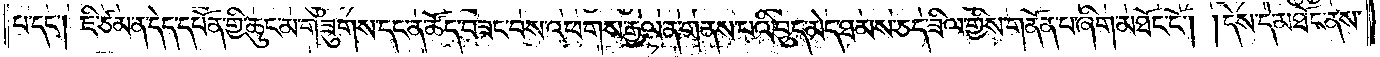པ་དང༌། ཇི་ཙམ་ན་དེད་དཔོན་གྱི་ཆུང་མ་གཟུགས་དང་ན་ཚོད་བཟང་བས་འཕགས་རྒྱལ་ན་གནས་པའི་བུད་མེད་ཐམས་ཅད་ཟིལ་གྱིས་གནོན་པ་ཞིག་མཐོང་ངོ༌། །དེས་དེ་མཐོང་ནས་
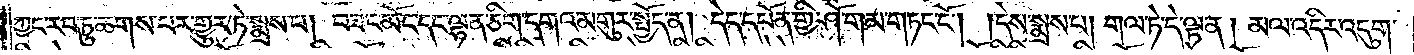ཀྱང་རབ་ཏུ་ཆགས་པར་གྱུར་ཏེ་སྨྲས་པ། བཟང་མོ་དང་ལྷན་ཅིག་དགའ་མགུར་སྤྱོད་ན། དེད་དཔོན་གྱི་ཤོ་གམ་གཏོང་ངོ༌། །དེས་སྨྲས་པ། གལ་ཏེ་དེ་ལྟ་ན། མལ་འདིར་འདུག་
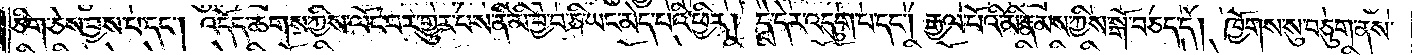ཅིག་ཅེས་བྱས་པ་དང༌། འདོད་ཆགས་ཀྱིས་ལོང་བར་གྱུར་པས་ནི་མི་བྱ་བ་ཅི་ཡང་མེད་པའི་ཕྱིར། དེ་དེར་འདུག་པ་དང༌། རྒྱལ་པོའི་མི་རྣམས་ཀྱིས་སྒོ་བཅད་དེ། ཁྱོགས་སུ་བཅུག་ནས་
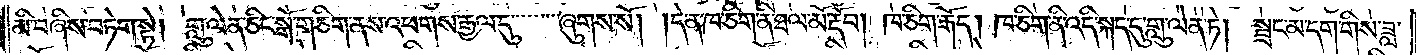མི་བཞིས་བཏེག་སྟེ། གླུ་ལེན་ཅིང་སྒོ་གཅིག་ནས་འཕགས་རྒྱལ་དུ་ཞུགས་སོ། །དེ་ན་ཁ་ཅིག་ནི་ཐལ་མོ་རྡོབ། ཁ་ཅིག་རྒོད། ཁ་ཅིག་ནི་འདི་སྐད་དུ་གླུ་ལེན་ཏེ། སྦྲང་མ་དག་གིས་ཟླ་
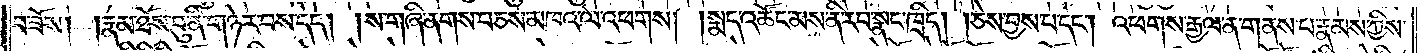བ་ཟོས། །རྣམ་ཐོས་བུ་ནི་གཉེར་བས་དེད། །ས་གཞི་ནགས་བཅས་མཁའ་ལ་འཕགས། །སྨད་འཚོང་མས་ནི་རབ་སྣང་ཁྲིད། །ཅེས་བྱས་པ་དང༌། འཕགས་རྒྱལ་ན་གནས་པ་རྣམས་ཀྱིས་
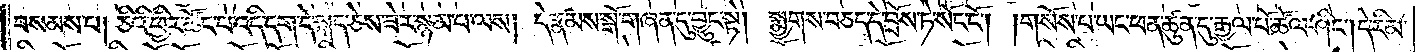བསམས་པ། ཅིའི་ཕྱིར་ཚོང་པ་འདི་དག་དེ་སྐད་ཅེས་ཟེར་སྙམ་པ་ལས། དེ་རྣམས་སྒོ་གཞན་དུ་བྱུང་སྟེ། སྨྱགས་བཅད་དེ་བྲོས་ཏེ་སོང་ངོ༌། །གསོས་པ་ཡང་ཕན་ཚུན་དུ་རྒྱལ་པོ་ཚོལ་ཤིང༌། དེ་རིམ་
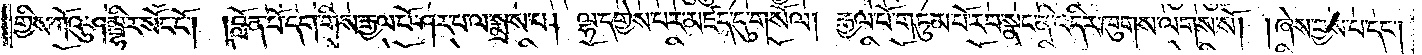གྱིས་ཀོའུ་ཤམྦྷིར་སོང་ངོ༌། །བློན་པོ་དག་གིས་རྒྱལ་པོ་ཤར་པ་ལ་སྨྲས་པ། ལྷ་དགྱེས་པར་མཛད་དུ་གསོལ། རྒྱལ་པོ་གཏུམ་པོ་རབ་སྣང་ནི་འདིར་ཁུགས་ལགས་སོ། །ཞེས་བྱས་པ་དང༌།
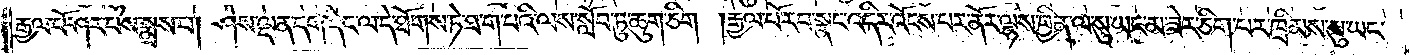རྒྱལ་པོ་ཤར་པ་སྨྲས་པ། ཤེས་ལྡན་དག་དེང་ལ་དེ་ཐོགས་ཏེ་ཐ་ག་པའི་ལས་སློབ་ཏུ་ཆུག་ཅིག །རྒྱལ་པོ་རབ་སྣང་འདིར་འོངས་པར་ནོར་ལྷས་བྱིན་ལ་སུ་ཡང་མ་ཟེར་ཅིག་པར་ཁྲིམས་སུ་ཡང་
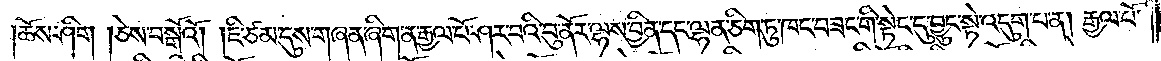ཆོས་ཤིག །ཅེས་བསྒོའོ། །ཇི་ཙམ་དུས་གཞན་ཞིག་ན་རྒྱལ་པོ་ཤར་བའི་བུ་ནོར་ལྷས་བྱིན་དང་ལྷན་ཅིག་ཏུ་ཁང་བཟང་གི་སྟེང་དུ་བྱུང་སྟེ་འདུག་པ་ན། རྒྱལ་པོ་
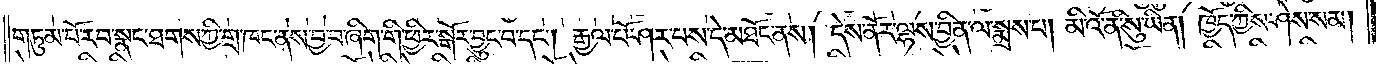གཏུམ་པོ་རབ་སྣང་ཐགས་ཀྱི་གྲ་ཁང་ནས་བྱ་བ་ཞིག་གི་ཕྱིར་སྒོར་བྱུང་བ་དང༌། རྒྱལ་པོ་ཤར་པས་དེ་མཐོང་ནས། དེས་ནོར་ལྷས་བྱིན་ལ་སྨྲས་པ། མིའོ་ནི་སུ་ཡིན། ཁྱོད་ཀྱིས་ཤེས་སམ།
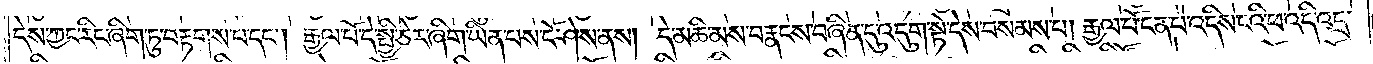དེས་ཀྱང་རིང་ཞིག་ཏུ་བརྟགས་པ་དང༌། རྒྱལ་པོ་དེ་སྤྱི་ཅེར་ཞིག་ཡིན་པས་ངོ་ཤེས་ནས། དེ་མཆི་མས་བརྣངས་བཞིན་དུ་འདུག་སྟེ་དེས་བསམས་པ། རྒྱལ་པོ་ངན་པ་འདིས་ངའི་ཕ་འདི་འདྲ་
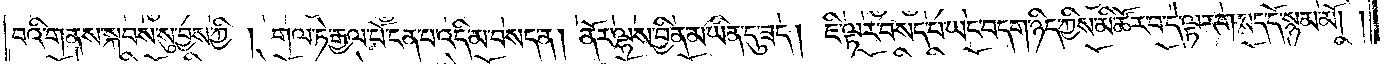བའི་གནས་སྐབས་སུ་བྱས་ཀྱི། གལ་ཏེ་རྒྱལ་པོ་ངན་པ་འདི་མ་བསད་ན། ནོར་ལྷས་བྱིན་མ་ཡིན་དུ་ཟད། ཇི་ལྟར་བསད་པ་ཡང་བདག་ཉིད་ཀྱིས་མི་ཚོར་བ་དེ་ལྟར་གསད་དོ་སྙམ་མོ། །
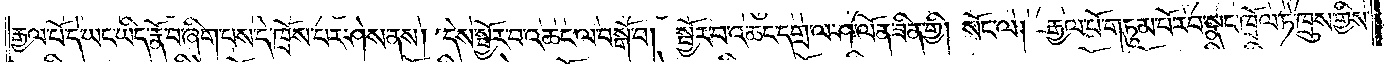རྒྱལ་པོ་དེ་ཡང་ཡིད་རྣོ་བ་ཞིག་པས་དེ་ཁྲོས་པར་ཤེས་ནས། དེས་སྦྱོར་བ་འཆང་ལ་བསྒོ་བ། སྦྱོར་བ་འཆང་དགྲ་ལ་ཤ་ལོན་ཟིན་གྱི། སོང་ལ། རྒྱལ་པོ་གཏུམ་པོ་རབ་སྣང་ཁྲོལ་ཏེ་ཁྲུས་གྱིས་
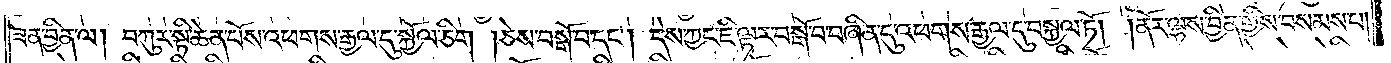ཟན་བྱིན་ལ། བཀུར་སྟི་ཆེན་པོས་འཕགས་རྒྱལ་དུ་སྐྱོལ་ཅིག །ཅེས་བསྒོ་བ་དང༌། དེས་ཀྱང་ཇི་ལྟར་བསྒོ་བ་བཞིན་དུ་འཕགས་རྒྱལ་དུ་བསྐྱལ་ཏོ། །ནོར་ལྷས་བྱིན་གྱིས་བསམས་པ།
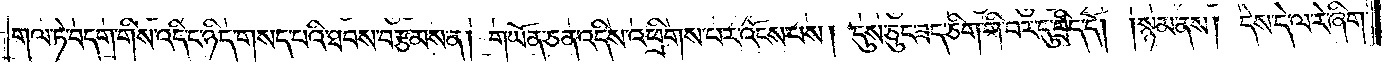གལ་ཏེ་བདག་གིས་འདི་ང་ཉིད་གསད་པའི་ཐབས་བརྩམས་ན། གཡོན་ཅན་འདིས་འཕྲིགས་པར་འོངས་པས། དུས་ཅུང་ཟད་ཅིག་གི་བར་དུ་བྲིད་དོ། །སྙམ་ནས། དེས་དེ་ལ་རེ་ཞིག་
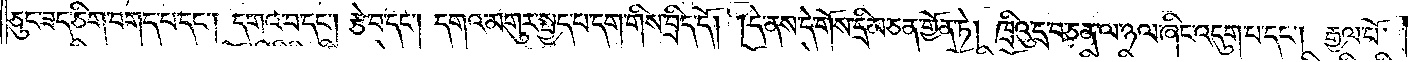ཅུང་ཟད་ཅིག་བགད་པ་དང༌། དགའ་བ་དང༌། རྩེ་བ་དང༌། དགའ་མགུར་སྤྱད་པ་དག་གིས་བྲིད་དོ། །དེ་ནས་དེ་གོས་དྲི་མ་ཅན་གྱོན་ཏེ། ཁྲིའུ་དྲ་བ་ཅན་ལ་ཉལ་ཞིང་འདུག་པ་དང༌། རྒྱལ་པོ་
